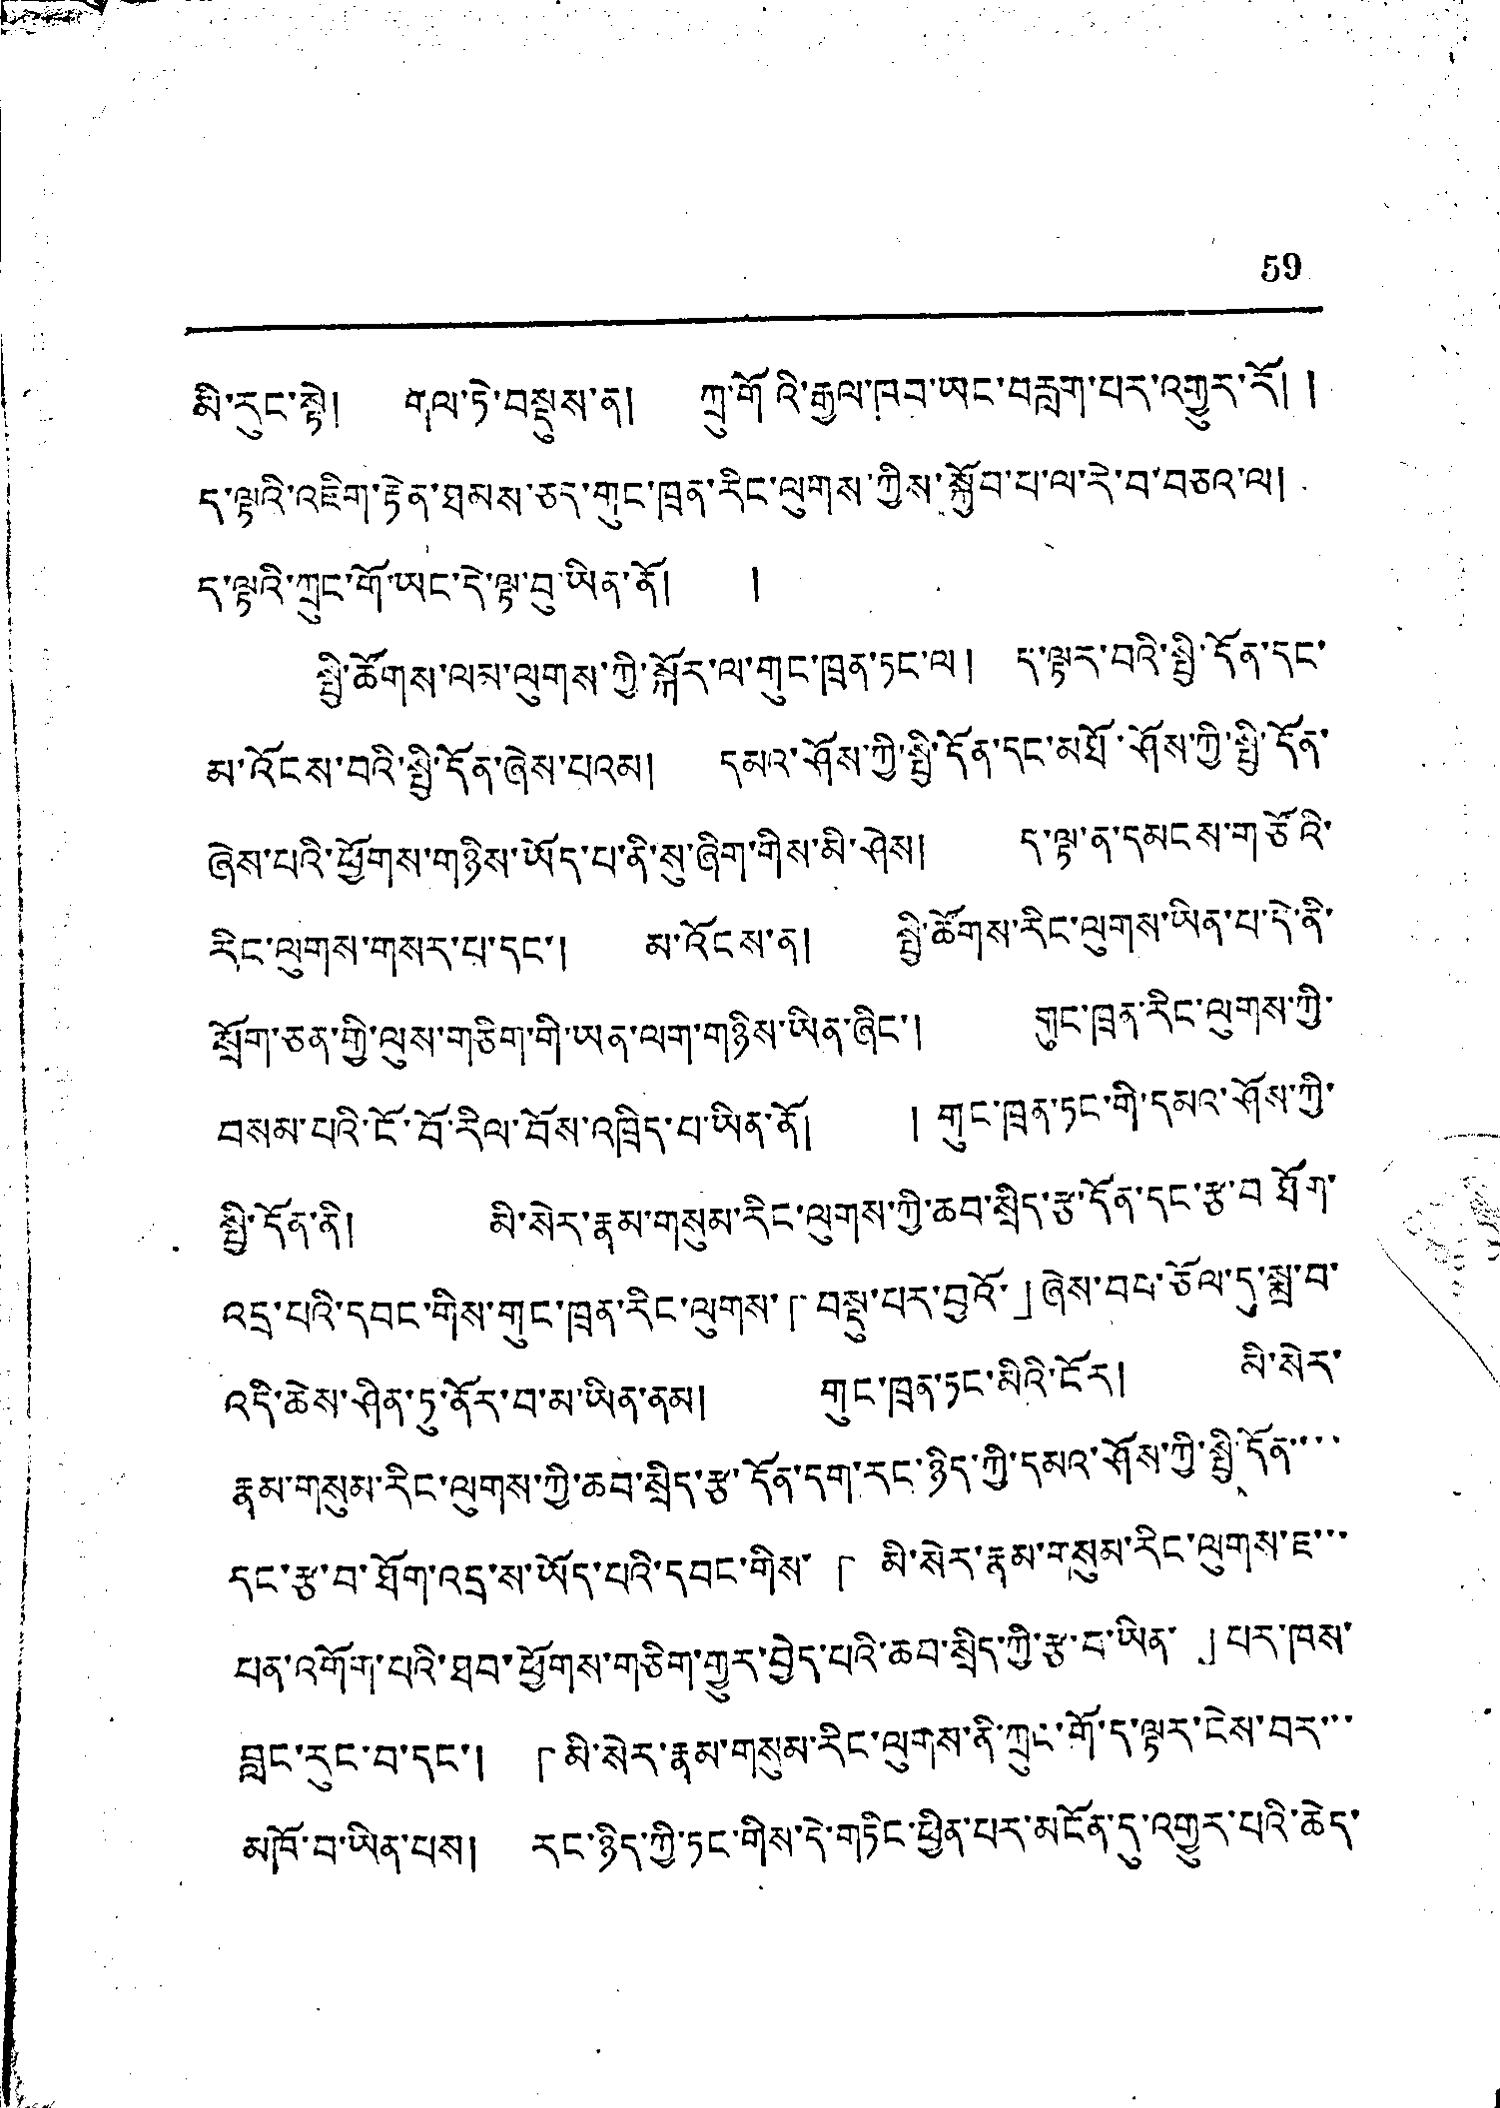59
མི་རུང་སྟེ། གལ་ཏེ་བསྡུས་ན། ཀྲུ་གོའི་རྒྱལ་ཁབ་ཡང་བརླག་པར་འགྱུར་རོ། །
ད་ལྟའི་འཇིག་རྟེན་ཐམས་ཅད་གུང་ཁྲན་རིང་ལུགས་ཀྱིས་སྐྱོབ་པ་ལ་རེ་བ་བཅའ་ལ།
ད་ལྟའི་ཀྲུང་གོ་ཡང་དེ་ལྟ་བུ་ཡིན་ནོ། །
སྤྱི་ཚོགས་ལམ་ལུགས་ཀྱི་སྐོར་ལ་གུང་ཁྲན་ཏང་ལ། ད་ལྟར་བའི་སྤྱི་དོན་དང་
མ་འོངས་བའི་སྤྱི་དོན་ཞེས་པའམ། དམའ་ཤོས་ཀྱི་སྤྱི་དོན་དང་མཐོ་ཤོས་ཀྱི་སྤྱི་དོན་
ཞེས་པའི་ཕྱོགས་གཉིས་ཡོད་པ་ནི་སུ་ཞིག་གིས་མི་ཤེས། ད་ལྟ་ན་དམངས་གཙོའི་
རིང་ལུགས་གསར་པ་དང་། མ་འོངས་ན། སྤྱི་ཚོགས་རིང་ལུགས་ཡིན་པ་དེ་ནི་
སྲོག་ཅན་གྱི་ལུས་གཅིག་གི་ཡན་ལག་གཉིས་ཡིན་ཞིང་། གུང་ཁྲན་རིང་ལུགས་ཀྱི་
བསམ་པའི་ངོ་བོ་རིལ་བོས་འཁྲིད་པ་ཡིན་ནོ། ། གུང་ཁྲན་ཏང་གི་དམའ་ཤོས་ཀྱི་
སྤྱི་དོན་ནི། མི་སེར་རྣམ་གསུམ་རིང་ལུགས་ཀྱི་ཆབ་སྲིད་རྩ་དོན་དང་རྩ་བཐོག་
འདྲ་པའི་དབང་གིས་གུང་ཁྲན་རིང་ལུགས་「བསྡུ་པར་བྱའོ་」ཞེས་བབ་ཅོལ་དུ་སྨྲ་བ་
འདི་ཆེས་ཤིན་ཏུ་ནོར་བ་མ་ཡིན་ནམ། གུང་ཁྲན་ཏང་མིའི་ངོར། མི་སེར་
རྣམ་གསུམ་རིང་ལུགས་ཀྱི་ཆབ་སྲིད་རྩ་དོན་དག་རང་ཉིད་ཀྱི་དམའ་ཤོས་ཀྱི་སྤྱི་དོན་་་་་
དིང་རྩ་བ་ཐོག་འདྲ་ས་ཡོད་པའི་དབང་གིས་「མི་སེར་རྣམ་གསུམ་རིང་ལུགས་ཇ་་་
པན་འགོག་པའི་ཐབ་ཕྱོགས་གཅིག་གྱུར་བྱེད་པའི་ཆབ་སྲིད་ཀྱི་རྩ་བ་ཡིན་」པར་ཁས་
ཟླང་རུང་བ་དང་། 「མི་སེར་རྣམ་གསུམ་རིང་ལུགས་ནི་ཀྲུང་གོ་ད་ལྟར་ངེས་བར་་་
མཁོ་བ་ཡིན་པས། རང་ཉིད་ཀྱི་ཏང་གིས་དེ་གཏིང་ཕྱིན་པར་མངོན་དུ་འགྱུར་པའི་ཆེད་
